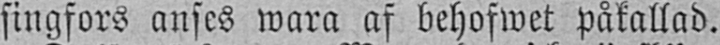singfors anses wara af behofwet påkallad.
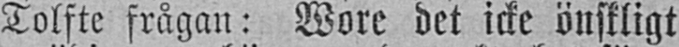Tolfte frågan: Wore det icke önskligt
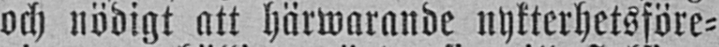och nödigt att härwarande nykterhetsföre-
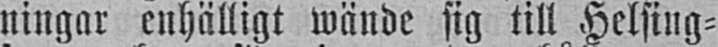ningar enhälligt wände sig till Helsing-
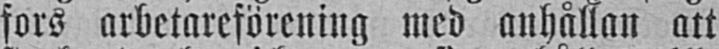fors arbetareförening med anhållan att
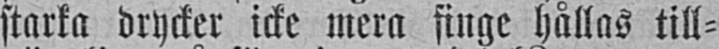starka drycker icke mera finge hållas till-
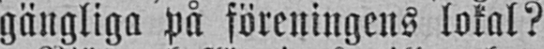gängliga på föreningens lokal?
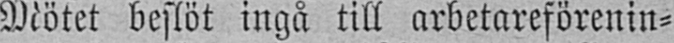Mötet beslöt ingå till arbetareförenin-
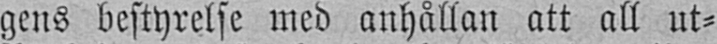gens bestyrelse med anhållan att all ut-
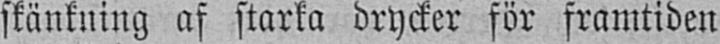skänkning af starka drycker för framtiden
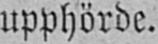upphörde.
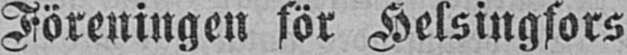Föreningen för Helsingfors
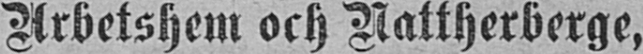Arbetshem och Nattherberge,
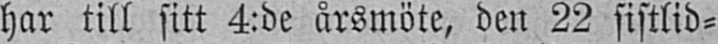har till sitt 4:de årsmöte, den 22 sistlid-
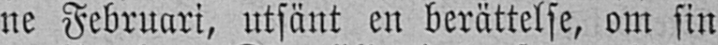ne Februari, utsänt en berättelse, om sin
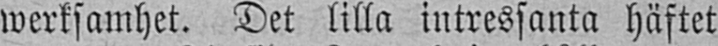werksamhet. Det lilla intressanta häftet
